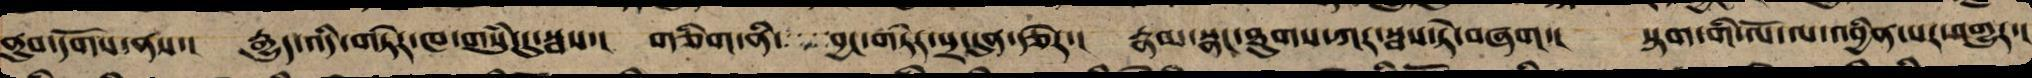ནུབ་དགོས་ནས་། རྒྱུད་འདི་གཏེར་ཁ་གསུཾ་དུ་སྦས་། གཅིག་ནི་ བྱང་གཏེར་པྲ་དུན་རྩེར་། རྣམ་སྣང་ཐུགས་ཀར་སྦས་ཏེ་བཞག་། སྟག་གི་ལོ་ལ་འབྱིན་པར་འགྱུར་།
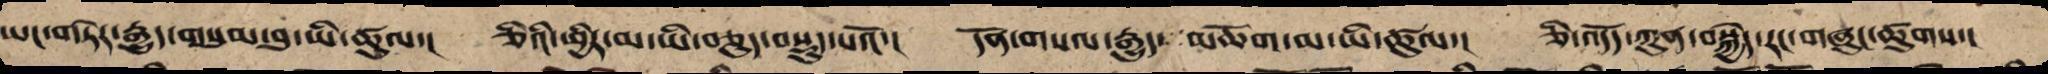ཡང་གཏེར་རྒྱུད་གསུམ་བུ་ཡི་ཚུལ་། ཅིའི་ཕྱིར་མ་ཡི་བཅུད་བསྡུས་པའོ་། དོན་གསལ་རྒྱུད་ མཆོག་མ་ཡི་ཚུལ་། ཅི་འདོད་ཀུན་བསྐྱེད་རང་གཞུང་ཚུགས་།
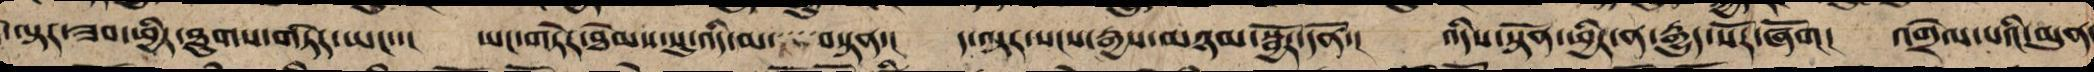་ལྟར་ཟབ་ཕྱིར་ཐུགས་གཏེར་ཡང་་། ཡང་གཏེར་ཐེམས་སུ་འདི་མ་་་་་བསྟན་། ད་ལྟ་སངས་རྒྱས་མཉམ་སྦྱོར་དོན་། འདིས་སྟོན་ཕྱིར་ན་རྒྱུད་སོར་ཞོག། འགྲེལ་པའི་མུན་
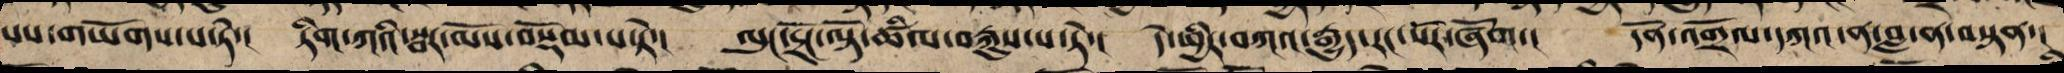པས་གཡོགས་པ་ཏེ་། ཏིག་ཀའི་སྦར་མོས་བསྡོམ་པ་ཏེ་། ལུང་དྲོང་ལྟོ་ཚིལ་བརྐུས་པ་ཏེ་། དེ་ཕྱིར་བཀའ་རྒྱུད་རང་སོར་ཞོག་། དོན་འགྲོལ་དཀའ་ན་བླ་ན་བསྟན་།
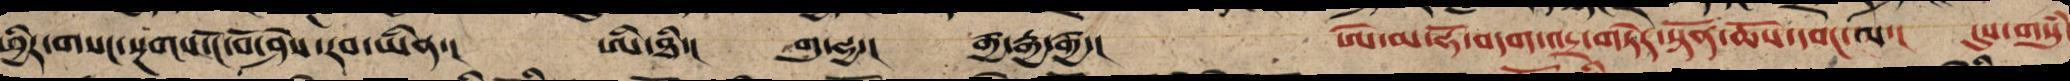ཕྱིར་གསང་སྔགས་ངོ་བོ་ཤེས་རབ་ཡིན་། ཨི་ཐི་། གུ་ཧྱ་། རྒྱ་རྒྱ་རྒྱ་། ཨེ་མ་ཧོ་བདག་འདྲ་གཏེར་སྟོན་ཆོས་དབང་ལ་། དུས་གསུཾ་
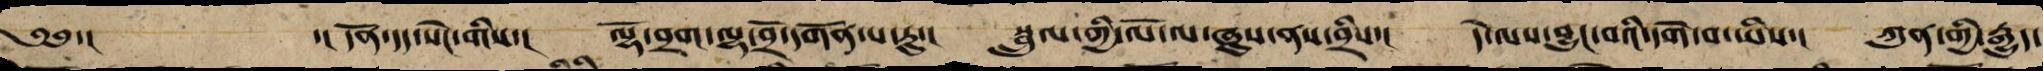༄༅་། ་། དོན་དད་སེང་གིས་། ལྷོ་བྲག་ལྷ་བྲོ་དགོན་པ་རུ་། སྦྲུལ་གྱི་ལོ་ལ་ཞུས་ནས་བྲིས་། དེ་ལས་བྱུང་བའི་དགེ་བ་ཡིས་། ཀུན་གྱི་རྒྱུད་
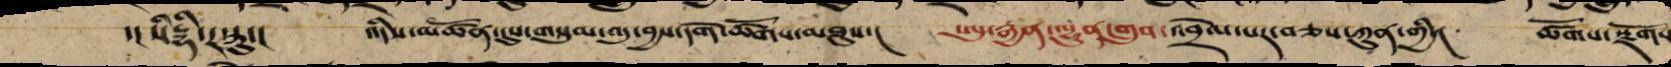་། སིདྡྷི་རསྟུ་། འདིས་མཚོན་དུས་གསུམ་འདུ་བྱས་དགེ་ཚོགས་མཐུས་། ཨུ་རྒྱན་ལྷུན་གྲུབ་འབྲེལ་པར་བཅས་ཀུན་གྱི་། ཚོགས་སྫོགས
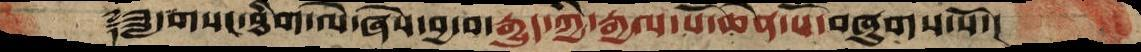࿑ཟླ་གསང་ཐིག་ལེ་ཞེས་བྱ་བ་རྒྱུད་ཀྱི་རྒྱལ་པོ་ཆེན་པོ་བཞུགས་སོ་།
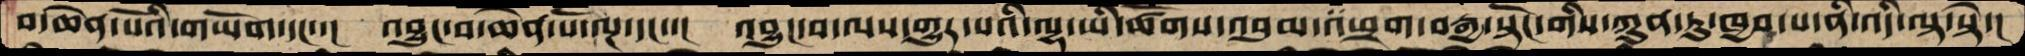བ་ཆེན་པོའི་གཡོག་དང་་།  འབྱུང་བ་ཆེན་པོ་ལྔ་དང་་།  འབྱུང་བ་ལས་གྱུར་པའི་ལྷ་ཡི་ཚོགས་འབུམ་འཕྲག་བརྒྱ་སྟོང་གིས་ཀུན་ཏུ་ཁྱབ་པ་ནི་འདི་ལྟ་སྟེ་།
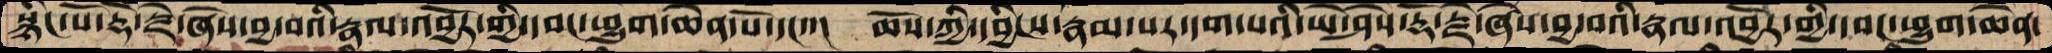སྙིང་པོ་རྡོ་རྗེ་ཞེས་བྱ་བའི་རྣལ་འབྱོར་གྱི་དབང་ཕྱུག་ཆེན་པོ་དང་་།  ཆོས་ཀྱི་དབྱིིངས་རྣམ་པར་དག་པའི་ཡེ་ཤེས་རྡོ་རྗེ་ཞེས་བྱ་བའི་རྣལ་འབྱོར་གྱི་དབང་ཕྱུག་ཆེན་
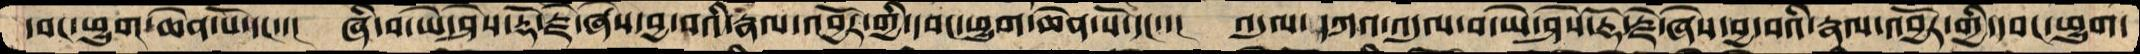དབང་ཕྱུག་ཆེན་པོ་དང་་།  ཞི་བ་ཡེ་ཤེས་རྡོ་རྗེ་ཞེས་བྱ་བའི་རྣལ་འབྱོར་གྱི་དབང་ཕྱུག་ཆེན་པོ་དང་་།  འདུལ་དཀའ་འདུལ་བ་ཡེ་ཤེས་རྡོ་རྗེ་ཞེས་བྱ་བའི་རྣལ་འབྱོར་གྱི་དབང་ཕྱུག་
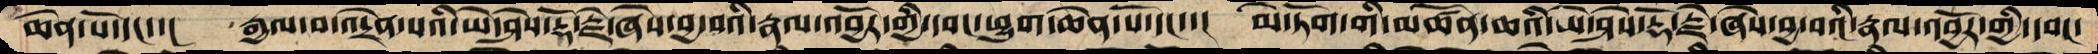ཆེན་པོ་དང་་།  རྒྱལ་བ་འདྲེན་པའི་ཡེ་ཤེས་རྡོ་རྗེ་ཞེས་བྱ་བའི་རྣལ་འབྱོར་གྱི་དབང་ཕྱུག་ཆེན་པོ་དང་་།  མེ་ཏོག་གི་མཚོན་ཆའི་ཡེ་ཤེས་རྡོ་རྗེ་ཞེས་བྱ་བའི་རྣལ་འབྱོར་གྱི་དབང་
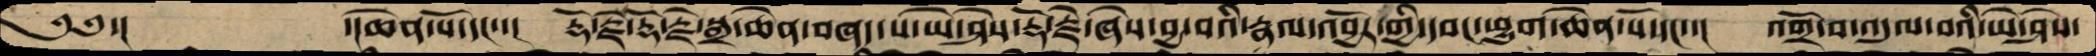༄༅་།       ་།ཆེན་པོ་དང་་།  རྡོ་རྗེ་རྡོ་རྗེ་སྒྲ་ཆེན་བཞད་པ་ཡེ་ཤེས་རྡོ་རྗེ་ཞེས་བྱ་བའི་རྣལ་འབྱོར་གྱི་དབང་ཕྱུག་ཆེན་པོ་དང་་།  འགྲོ་བ་འདུལ་བའི་ཡེ་ཤེས་
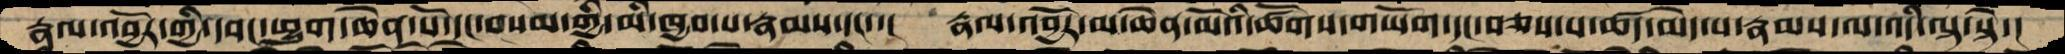རྣལ་འབྱོར་གྱི་དབང་ཕྱུག་ཆེན་པོ་དང་བསམ་གྱི་མི་ཁྱབ་པ་རྣམས་དང་་།  རྣལ་འབྱོར་མ་ཆེན་མོའི་ཚོགས་གཡོག་དང་བཅས་པ་ཚད་མེད་པ་རྣམས་ལ་འདི་ལྟ་སྟེ་།
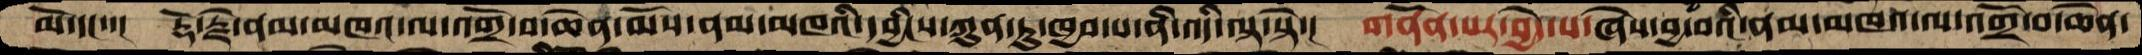མོ་དང་་།  རྡོ་རྗེ་ནམ་མཁའ་ལ་འགྲོ་བ་ཆེན་མོས་ནམ་མཁའི་དབྱིངས་ཀུན་ཏུ་ཁྱབ་པ་ནི་འདི་ལྟ་སྟེ་།  གནོན་པར་བྱེད་པ་ཞེས་བྱ་བའི་ནམ་མཁའ་ལ་འགྲོ་བ་ཆེན་
